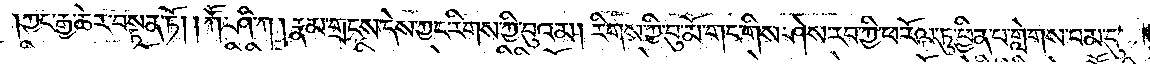ཀྱང་རྒྱ་ཆེར་བསྟན་ཏོ། །ཀཽ་ཤི་ཀ། རྣམ་གྲངས་དེས་ཀྱང་རིགས་ཀྱི་བུའམ། རིགས་ཀྱི་བུ་མོ་གང་གིས་ཤེས་རབ་ཀྱི་ཕ་རོལ་ཏུ་ཕྱིན་པ་གླེགས་བམ་དུ་
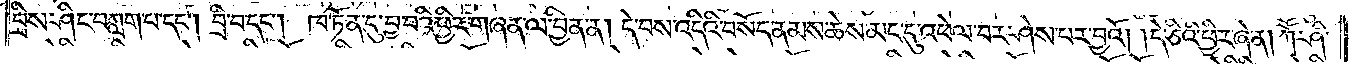བྲིས་ཤིང་བཀླག་པ་དང༌། བྲི་བ་དང༌། ཁ་ཏོན་དུ་བྱ་བའི་ཕྱིར་གཞན་ལ་བྱིན་ན། དེ་བས་འདིའི་བསོད་ནམས་ཆེས་མང་དུ་འཕེལ་བར་ཤེས་པར་བྱའོ། །དེ་ཅིའི་ཕྱིར་ཞེ་ན། ཀཽ་ཤི་
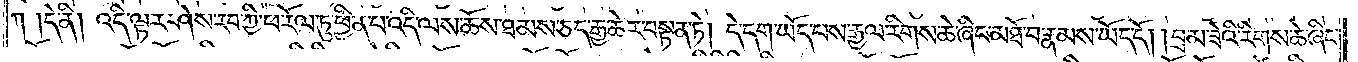ཀ། དེ་ནི། འདི་ལྟར་ཤེས་རབ་ཀྱི་ཕ་རོལ་ཏུ་ཕྱིན་པ་འདི་ལས་ཆོས་ཐམས་ཅད་རྒྱ་ཆེར་བསྟན་ཏེ། དེ་དག་ཡོད་པས་རྒྱལ་རིགས་ཆེ་ཞིང་མཐོ་བ་རྣམས་ཡོད་དོ། །བྲམ་ཟེའི་རིགས་ཆེ་ཞིང་
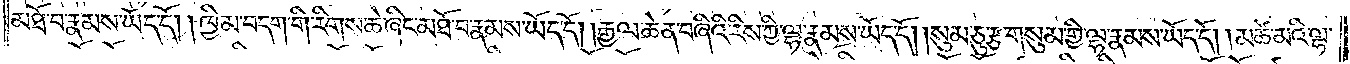མཐོ་བ་རྣམས་ཡོད་དོ། །ཁྱིམ་བདག་གི་རིགས་ཆེ་ཞིང་མཐོ་བ་རྣམས་ཡོད་དོ། །རྒྱལ་ཆེན་བཞིའི་རིས་ཀྱི་ལྷ་རྣམས་ཡོད་དོ། །སུམ་ཅུ་རྩ་གསུམ་གྱི་ལྷ་རྣམས་ཡོད་དོ། །མཚེ་མའི་ལྷ་
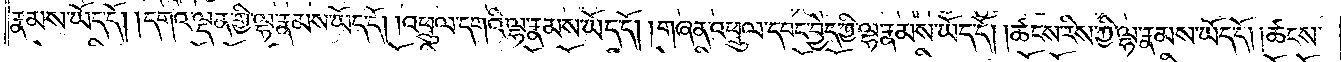རྣམས་ཡོད་དོ། །དགའ་ལྡན་གྱི་ལྷ་རྣམས་ཡོད་དོ། །འཕྲུལ་དགའི་ལྷ་རྣམས་ཡོད་དོ། །གཞན་འཕྲུལ་དབང་བྱེད་ཀྱི་ལྷ་རྣམས་ཡོད་དོ། །ཚངས་རིས་ཀྱི་ལྷ་རྣམས་ཡོད་དོ། །ཚངས་
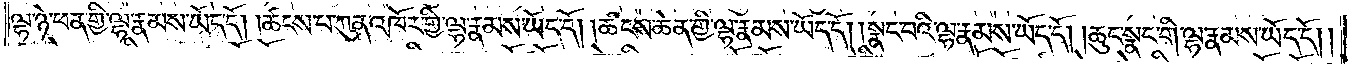ལྷ་ཉེ་ཕན་གྱི་ལྷ་རྣམས་ཡོད་དོ། །ཚངས་པ་ཀུན་འཁོར་གྱི་ལྷ་རྣམས་ཡོད་དོ། །ཚངས་ཆེན་གྱི་ལྷ་རྣམས་ཡོད་དོ། །སྣང་བའི་ལྷ་རྣམས་ཡོད་དོ། །ཆུང་སྣང་གི་ལྷ་རྣམས་ཡོད་དོ༎
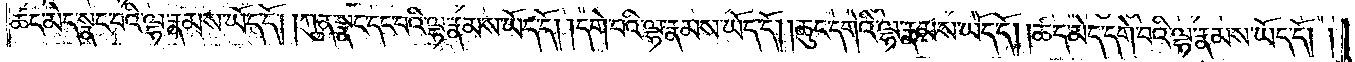ཚད་མེད་སྣང་བའི་ལྷ་རྣམས་ཡོད་དོ། །ཀུན་སྣང་དང་བའི་ལྷ་རྣམས་ཡོད་དོ། །དགེ་བའི་ལྷ་རྣམས་ཡོད་དོ། །ཆུང་དགེའི་ལྷ་རྣམས་ཡོད་དོ། །ཚད་མེད་དགེ་བའི་ལྷ་རྣམས་ཡོད་དོ། །
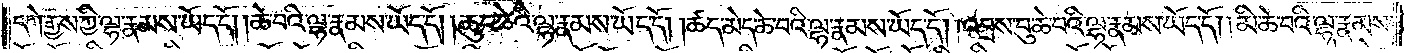དགེ་རྒྱས་ཀྱི་ལྷ་རྣམས་ཡོད་དོ། །ཆེ་བའི་ལྷ་རྣམས་ཡོད་དོ། །ཆུང་ཆེའི་ལྷ་རྣམས་ཡོད་དོ། །ཚད་མེད་ཆེ་བའི་ལྷ་རྣམས་ཡོད་དོ། །འབྲས་བུ་ཆེ་བའི་ལྷ་རྣམས་ཡོད་དོ། །མི་ཆེ་བའི་ལྷ་རྣམས་
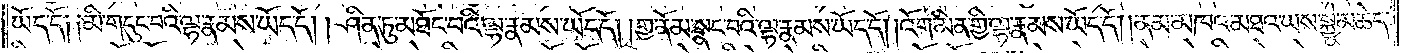ཡོད་དོ༑ ༑མི་གདུང་བའི་ལྷ་རྣམས་ཡོད་དོ། །ཤིན་ཏུ་མཐོང་བའི་ལྷ་རྣམས་ཡོད་དོ། །གྱ་ནོམ་སྣང་བའི་ལྷ་རྣམས་ཡོད་དོ། །འོག་མིན་གྱི་ལྷ་རྣམས་ཡོད་དོ། །ནམ་མཁའ་མཐའ་ཡས་སྐྱེ་མཆེད་
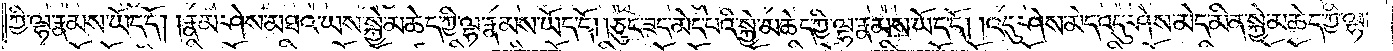ཀྱི་ལྷ་རྣམས་ཡོད་དོ། །རྣམ་ཤེས་མཐའ་ཡས་སྐྱེ་མཆེད་ཀྱི་ལྷ་རྣམས་ཡོད་དོ། །ཅུང་ཟད་མེད་པའི་སྐྱེ་མཆེད་ཀྱི་ལྷ་རྣམས་ཡོད་དོ། །འདུ་ཤེས་མེད་འདུ་ཤེས་མེད་མིན་སྐྱེ་མཆེད་ཀྱི་ལྷ་
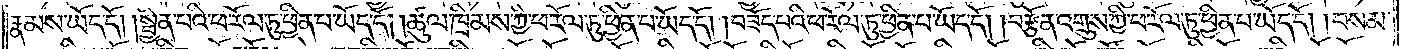རྣམས་ཡོད་དོ། །སྦྱིན་བའི་ཕ་རོལ་ཏུ་ཕྱིན་པ་ཡོད་དོ། །ཚུལ་ཁྲིམས་ཀྱི་ཕ་རོལ་ཏུ་ཕྱིན་པ་ཡོད་དོ། །བཟོད་པའི་ཕ་རོལ་ཏུ་ཕྱིན་པ་ཡོད་དོ། །བརྩོན་འགྲུས་ཀྱི་ཕ་རོལ་ཏུ་ཕྱིན་པ་ཡོད་དོ། །བསམ་
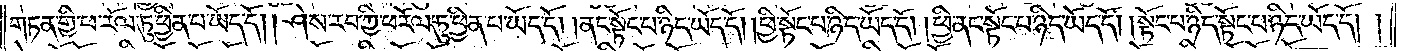གཏན་གྱི་ཕ་རོལ་ཏུ་ཕྱིན་པ་ཡོད་དོ། །ཤེས་རབ་ཀྱི་ཕ་རོལ་ཏུ་ཕྱིན་པ་ཡོད་དོ། །ནང་སྟོང་པ་ཉིད་ཡོད་དོ། །ཕྱི་སྟོང་པ་ཉིད་ཡོད་དོ། །ཕྱི་ནང་སྟོང་པ་ཉིད་ཡོད་དོ། །སྟོང་པ་ཉིད་སྟོང་པ་ཉིད་ཡོད་དོ། །
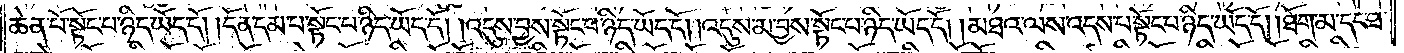ཆེན་པོ་སྟོང་པ་ཉིད་ཡོད་དོ། །དོན་དམ་པ་སྟོང་པ་ཉིད་ཡོད་དོ། །འདུས་བྱས་སྟོང་པ་ཉིད་ཡོད་དོ། །འདུས་མ་བྱས་སྟོང་པ་ཉིད་ཡོད་དོ། །མཐའ་ལས་འདས་པ་སྟོང་པ་ཉིད་ཡོད་དོ། །ཐོག་མ་དང་ཐ་
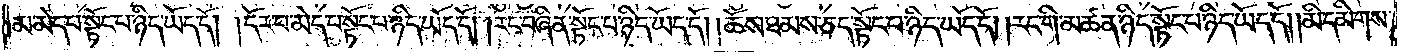མ་མེད་པ་སྟོང་པ་ཉིད་ཡོད་དོ། །དོར་བ་མེད་པ་སྟོང་པ་ཉིད་ཡོད་དོ། །རང་བཞིན་སྟོང་པ་ཉིད་ཡོད་དོ། །ཆོས་ཐམས་ཅད་སྟོང་པ་ཉིད་ཡོད་དོ། །རང་གི་མཆན་ཉིད་སྟོང་པ་ཉིད་ཡོད་དོ། །མི་དམིགས་
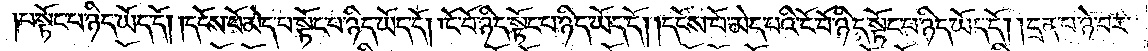པ་སྟོང་པ་ཉིད་ཡོད་དོ། །དངོས་པོ་མེད་པ་སྟོང་པ་ཉིད་ཡོད་དོ། །ངོ་བོ་ཉིད་སྟོང་པ་ཉིད་ཡོད་དོ། །དངོས་པོ་མེད་པའི་ངོ་བོ་ཉིད་སྟོང་པ་ཉིད་ཡོད་དོ། །དྲན་པ་ཉེ་བར་
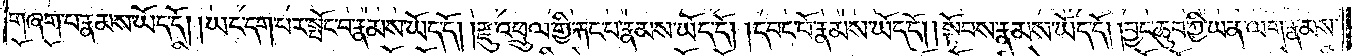གཞག་པ་རྣམས་ཡོད་དོ། །ཡང་དག་པར་སྤོང་བ་རྣམས་ཡོད་དོ། །རྫུ་འཕྲུལ་གྱི་རྐང་པ་རྣམས་ཡོད་དོ། །དབང་པོ་རྣམས་ཡོད་དོ། །སྟོབས་རྣམས་ཡོད་དོ། །བྱང་ཆུབ་ཀྱི་ཡན་ལག་རྣམས་
